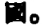國。
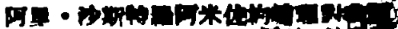阿里・沙斯特羅阿米佐約總理到我國
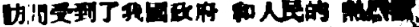訪問受到了我國政府 和人民的熱烈歡
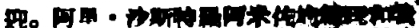迎。阿里・沙斯特羅阿米佐約總理和我
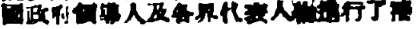國政府領導人及各界代表人員進行了接
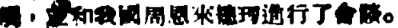觸，並和我國周恩來總理進行了會談。
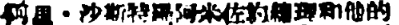阿里・沙斯特羅阿米佐約總理和他的
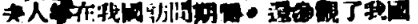夫人等在我國訪問期間，還參觀了我國
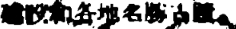建設和各地名勝古蹟。
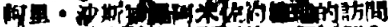阿里・沙斯特羅阿米佐約總理的訪問
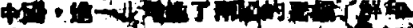中國，進一步增進了兩國的互相了解和
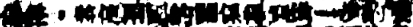信任，將使兩國的關係得到進一步的發
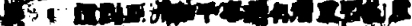展 ，這對亞洲和平事業有着重要的意
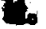義。
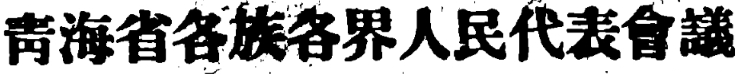靑海省各族各界人民代表會議
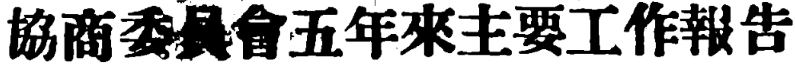協商委員會五年來主要工作報告
